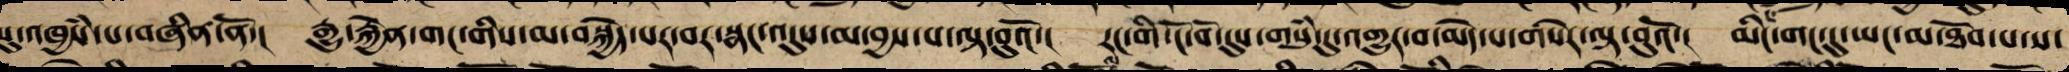སུ་འཁྱཾས་པ་བཞིན་ནོ་། རྒྱུ་རྐྱེན་གང་གིས་མ་བསྐྱེད་པ་བར་སྣང་འདུས་མ་བྱས་པ་ལྟ་བུའོ་། རང་གི་ངོ་བོ་དུས་གསུཾ་དུ་འགྱུར་པ་མེད་པས་གསེར་ལྟ་བུའོ་། མིང་གང་དུ་ཡང་མ་ཐོབ་པས་
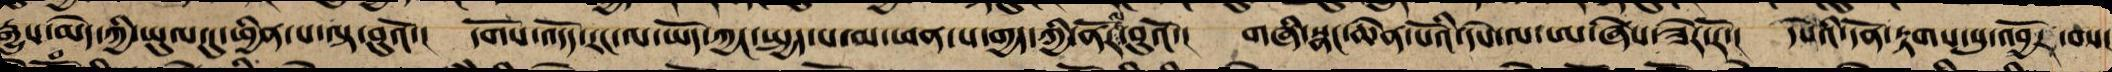རྒྱུས་མེད་ཀྱི་ཡུལ་དུ་ཕྱིན་པ་ལྟ་བུའོ་། དགོས་འདོད་རང་ལ་ཡོད་ཀྱང་སྤྱད་པར་མ་ཕན་པ་གྱད་ཀྱི་ནོར་བུའོ་། གཞི་སྣང་ཆེན་པོའི་དཔེ་ལ་ཨ་ཞེས་ཟེར་རོ་། དཔེའི་དོན་རྟགས་སུ་འབྱོར་སབ་
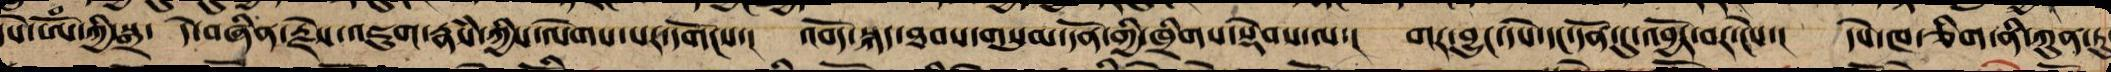དཔེ་ཨོཾ་གྱི་སྒྲ་ དེ་བཞིན་རྗེས་འཇུག་རྣཾས་ཀྱིས་ལེགས་པར་དགོངས་། འབོད་སྐདཐབས་གསུམ་དོན་གྱི་ཁྲིགས་སྡེབས་ལ་། གར་བྱུང་དཔེ་དང་དོན་དུ་འབྱོར་བར་ངེས་། དཔེ་ཁ་གཅིག་ནི་ཀུན་ཏུ
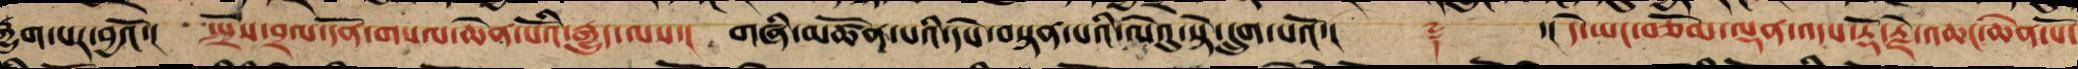རྒྱུག་པར་བྱའོ་། སྤྲོས་བྲལ་དོན་གསལ་ཆེན་པོའི་རྒྱུད་ལས་། གཞི་མཚོན་པའི་དཔེ་བསྟན་པའི་ལེའུ་སྟེ་དྲུག་པའོ་།། ༈ ་།། དེ་ནས་ཡང་བཅོམ་ལྡན་འདས་རྡོ་རྗེ་འཆང་ཆེན་པོ་
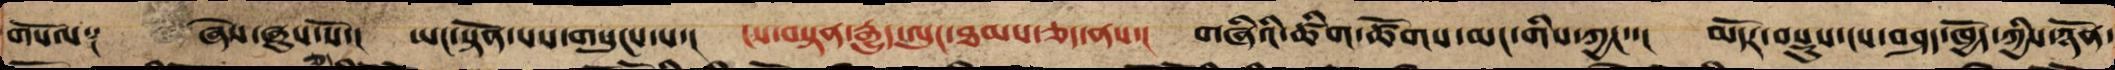གསོལ༑ ཞེས་ཞུས་སོ་། ཡང་སྟོན་པས་གསུངས་པ་། ངས་བསྟན་རྒྱུད་ལུང་ཐམས་ཅད་ནས་། གཞི་ཡི་ཚིག་ཚོགས་མང་གིས་ཀྱང་་། མདོར་བསྡུས་ངས་བཤད་ཁྱོད་ཀྱིས་ཉོན་
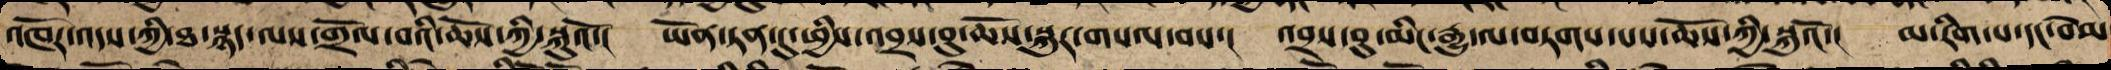འཁོར་འདས་ཀྱི་ཐ་སྙད་ལས་གྲོལ་བས་ཆོས་ཀྱི་སྐུའོ་། ཡོན་ཏན་དུས་ཕྱིས་འབྲས་བུ་ཆོས་སྐུར་གསལ་བས་། འབྲས་བུ་མིང་རྒྱུ་ལ་བཏགས་པས་ཆོས་ཀྱི་སྐུའོ་། མ་རིག་པ་དང་བེམ
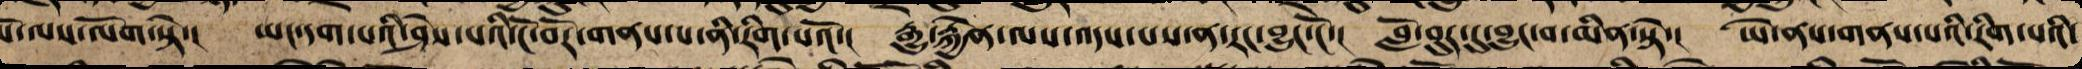པོ་ལས་ལོག་སྟེ་། ཡང་དག་པའི་ཤེས་པའི་ངོ་བོར་གནས་པ་ནི་རིག་པའོ་། རྒྱུ་རྐྱེན་ལས་འདས་པས་རང་བྱུང་ངོ་། གློ་བུར་དུ་བྱུང་བ་མིན་སྟེ་། ཡེ་ནས་གནས་པའི་རིག་པའི་
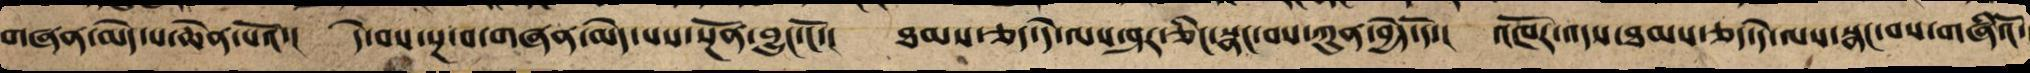གཞན་མེད་པས་ཆེན་པོའོ་། དེ་བས་སྔ་བ་གཞན་མེད་པས་སྔོན་བྱུང་ངོ་། ཐམས་ཅད་དེ་ལས་ཤར་ཅིང་སྣང་བས་ཀུན་བྱེད་དོ་། འཁོར་འདས་ཐམས་ཅད་དེ་ལས་སྣང་བས་གཞིའོ་
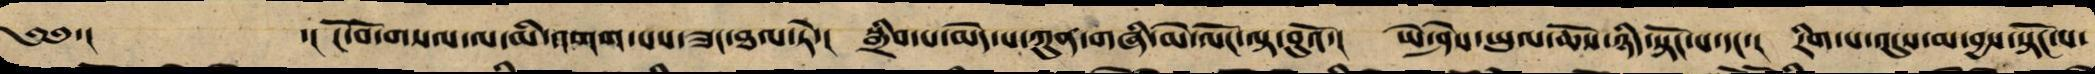༄༅་།  ་། ངོ་བོ་གསལ་ལ་མི་འགག་པས་ཟང་ཐལ་ཏེ་། སྒྲིབ་པ་མེད་པས་ཀུན་གཞི་མེ་ལོང་ལྟ་བུའོ་། ཡེ་ཤེས་ཡུལ་ཆོས་ཉིད་སྟོང་པ་དང་། རིག་པ་འདུས་མ་བྱས་སྟོང་པ་
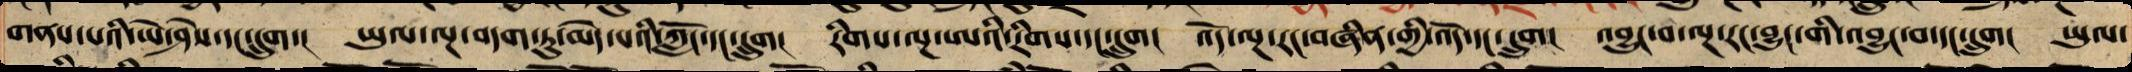གནས་པའི་ཡེ་ཤེས་དང་དྲུག། ཡུལ་ལྔ་བདག་ཏུ་མེད་པའི་ཀློང་དང་དྲུག། རིགས་ལྔ་ཨའི་རིགས་དང་དྲུག། འོད་ལྔ་རང་བཞིན་གྱི་འོད་དང་དྲུག། འབྱུང་བ་ལྔ་རང་བྱུང་གི་འབྱུང་བ་དང་དྲུག། ཡུལ་
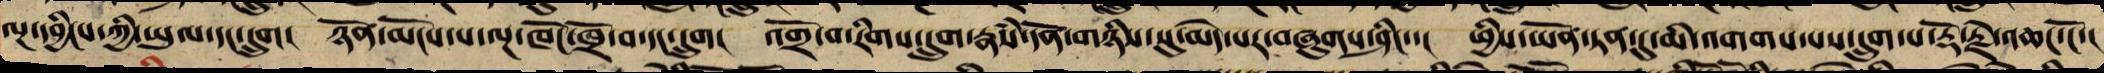ལྔ་དབྱིངས་ཀྱི་ཡུལ་དང་དྲུག། ཉོན་མོངས་པ་ལྔ་ཁོང་ཁྲོ་བ་དང་དྲུག། འགྲོ་བ་རིགས་དྲུག་རྣཾས་དོན་གཉིས་སུ་མེད་པར་བཞུགས་ཤིང་། ཕྱིས་ཡོན་ཏན་དུ་མི་འགགས་པས་དྲུག་པ་རྡོ་རྗེ་འཆང་ངོ་།
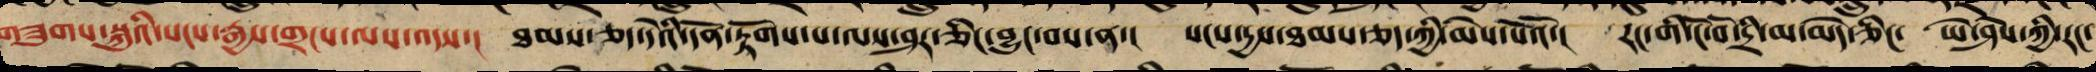གཟུགས་སྐུའི་སངས་རྒྱས་གྲངས་ལས་འདས་པས་། ཐམས་ཅད་དེའི་དོན་རྟོགས་པ་ལས་ཤར་ཅིང་བྱུང་བས་ན་། སངས་རྒྱས་ཐམས་ཅད་ཀྱི་མེས་པོའོ་། རང་གི་ངོ་བོ་དྲི་མ་མེད་ཅིང་ ཡེ་ཤེས་ཀྱི་རང་
